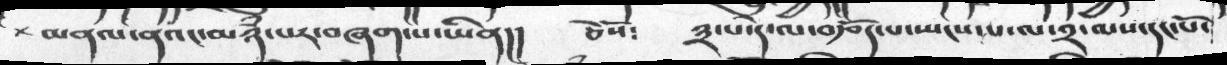+མནལ་ནའང་མཉཾ་པར་བཞག་པ་ཡིན།།  ཅེསོ༴  ༣་པ་དེ་ལ་བརྩོད་པ་སྤངས་པ་ལ་༢་ལས་དང་པོ་
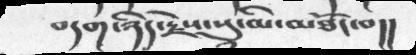བདག་ཉིད་རྗེས་སུ་མི་མཐོང་བ།།
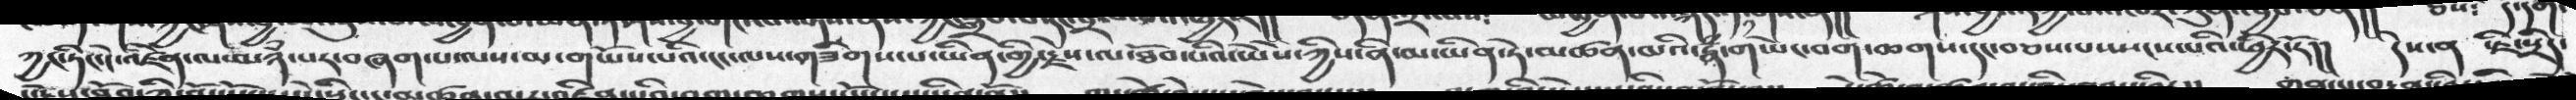ཀྱང་ཏིང་ངེ་འཛིན་ལ་མཉཾ་པར་་བཞག་པ་ལས་མ་གཡོས་པའི་ངང་ལས་གཟིགས་པ་ཡིན་གྱི་རྗེས་ལ་ཐོབ་པའི་ཡེེས་ཀྱིས་ནི་མ་ཡིན་ཏེ་མཚན་མའི་རྣྃ་གཡེང་བག་ཆགས་དང་བཅས་པ་སྤངས་པའི་ཕྱིར།།  དེས་ན  ་ཇི་སྲིད་
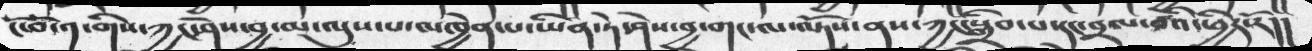ང་བོ་༡་གིས་ཀྱང་ཤེས་བྱ་མ་ལུས་པ་མཁྱེན་པ་ཡིན་ཏེ་ཤེས་བྱ་གང་ལ་ལྟོས་ནས་ཀྱང་སྒྲིབ་པ་དང་བྲལ་བའི་ཕྱིར་རོ།།
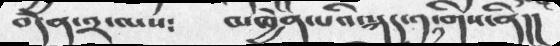བདེན་༢་ལས༴  མཁྱེན་པའི་སྐད་༡་༡་གིས་ནི།།
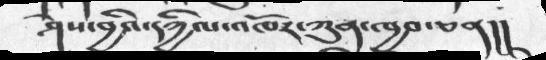ཤེས་བྱའི་དཀྱིལ་འཁོར་ཀུན་ཁྱབ་ཅན།།
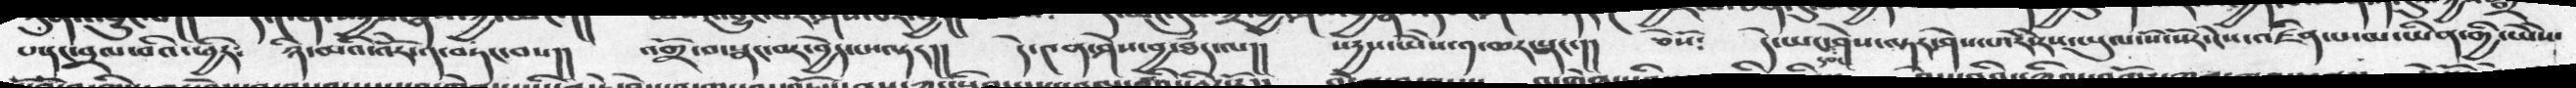པ་དང་བྲལ་བའི་ཕྱིར༴  ཉི་མ་འི་འོེར་༡་བཏང་བས།།  འགྲོ་བ་སྣང་བར་བྱེད་པ་ལྟར།།   དེ་༤ན་ཤེས་བྱ་ཐཾད་ལ།།  སདྱས་ཡེེས་༡་ཆར་སྣང་།།  ཅེསོ༴   དེ་ཡང་དབང་ཤེས་པ་རེ་རེས་ཡུལ་སོ་སོར་ངེས་འཛིན་པ་མ་ཡིན་གྱི་ཡེས་
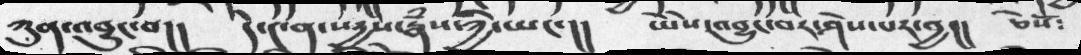ཀུན་འབྱུང་བ།།   དེ་༤ན་སདྱས་རྣཾས་ཀྱི་ཡང་།།  ཡེེས་འབྱུང་བར་ཤེས་པར་བྱ།།  ཅེསོ༴
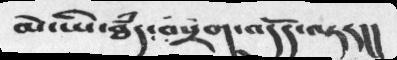མེ་ཡི་ཐཾད་བསྲེག་འདོད་ལྟར།།
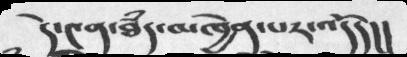དེ་༤ན་ཐཾད་མཁྱེན་པར་འདོད།།
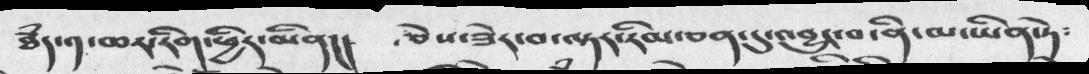ཐཾད་༡་ཆར་རིག་ཕྱིར་མིན།།  ཅེས་ཟེར་བ་ལྟར་རིམ་ཅན་དུ་འབྱུང་བ་ནི་མ་ཡིན་ཏེ༴
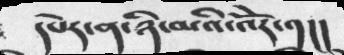དཔེར་ན་ཉི་མའི་འོེར་༡།།
